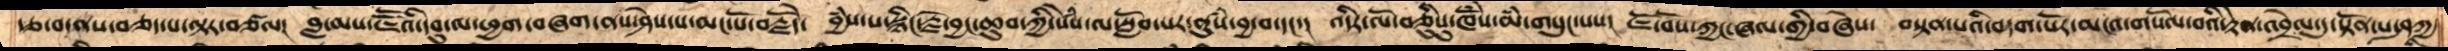རྩ་བ་ནས་བཅད་པ་ལྟར་བཙལ།  བླ་མས་ཇཽའི་དབུ་ལ་ཕྱག་བཞག་ནས་ཤེས་པ་མང་པོ་བརྗོདེ་  བྱཾས་པ་སྙིང་རྗེ་བྱང་ཆུབ་ཀྱི་སེཾས་ལ་སློབ་པར་ནུསཾ་བྱ་བ་དང་།  འདིར་ལོ་བཅིུསུ་ཁོཾས་མཾ་གསུང་པས།  ཇོ་བོས་ཀྱང་ཞལ་གྱི་བཞེས་  བསྟན་པའི་བདག་པོར་མངའ་གསོལ་བའི་རྟེན་འབྲེལ་དུ་སྟོན་པ་ཤཱཀྱ་
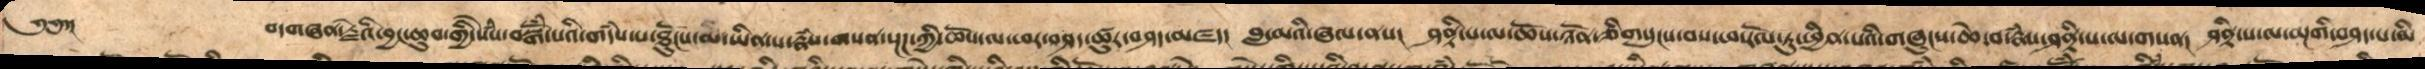༄༅་།      བདགཞན་རྗེའི་བྱང་ཆུབ་གྱི་སེཾས་བསྒོཾ་པའི་གདཾས་པ་ཐུངོས་མ་ཡིན་པ་རྣཾས་གསན་སྔཌ་ཀྱི་ཆོས་ལ་ཕར་བཤད་ཚུར་བཤད་མཛད།  བླ་མའི་ཞལ་ནས།  ཤནྟི་པ་ལ་ཆོས་ཉོན་ཅིག་གསུངས་བས་ཕ་རོལ་ཏུ་ཕྱིན་པའི་གཞུངས་ཆེ་བ་རྣཾས་ཤནྟི་པ་ལ་གསན། ཤནྟི་པ་ལ་མྔགི་བཤད་པ་མི་
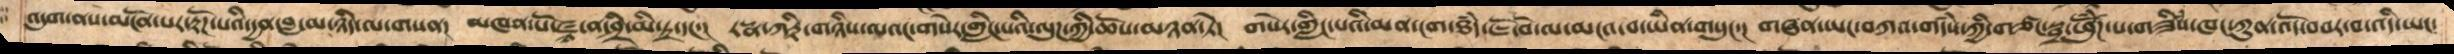འདུག་ནས་མངོན་པར་རྟོཌ་པའི་དྱན་བླ་མ་ཉིད་ལ་གསན།  མཁན་པོ་ཛྙ་ན་ཤྲི་མི་ཏྲ་དང་།  རཏྣ་ཀརྟི་གཉིས་ལའང་གསེར་གླིང་པའི་ལུཌ་ཀྱི་ཆོས་མཉན་ཏེ།  གསེར་གླིང་པའི་མན་ངག་ཐཾད་ཇོ་བོ་ལ་མངའ་བ་ཡིན་གསུང་།  གཞན་ཡང་བཀའ་གདཾས་ཀྱི་གཙང་སྦྲ་ཕོུཾཌ་པ་གཟིཾས་ཁང་ཀུན་འོད་བབར་བ་འདི་ཡང་
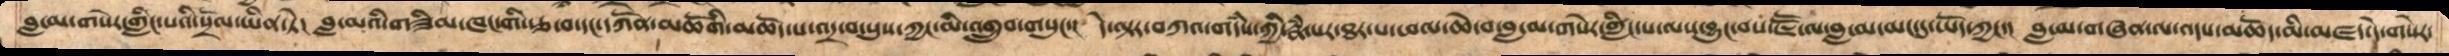བླ་མ་གསེར་གླིང་པའི་སྲོལ་ཡིན་ཏེ།  བླ་མའི་གཟིམ་ཁང་གི་རྩ་བ་དདང་དཀོན་མཆོགི་མཆོད་པ་འདྲ་བ་སུས་ཀྱང་མི་འགྲུབ་གསུང་།  དེ་ལྟར་བཀའ་གདཾས་ཀྱི་རྣཾ་པར་ཐར་པ་ཕལ་ཆེ་བ་བླ་མ་གསེར་གླིང་པ་ལས་བྱུང་བས་ཇཽ་ལ་བླ་མ་མང་དུ་ཡོད་ཀྱང་།  བླ་མ་གཞན་ལ་འདས་མཆོད་མི་མཛད་དེ་གསེར་
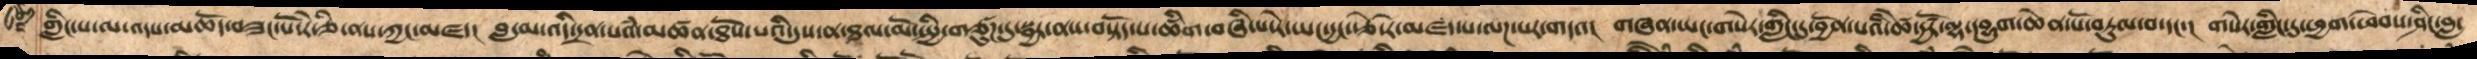གླིང་པ་ལ་འདས་མཆོད་བཟང་པོ་རེ་ཅི་ནས་ཀྱང་མཛད། བླ་མ་འདི་དྲན་པའཾ་མཚན་ཐོས་པའི་དུས་ན་ཐལ་མོ་སྤྱི་གཙུཌ་དུ་སྦྱར་ནས་བསྟོད་པ་ཚིག་བཞི་པ་རེ་ཡང་དྱང་རྩེ་རེ་མཛད་པ་ལཌ་པར་གདའ། གཞན་ཡང་གསེར་གླིང་དུ་བྱོན་པའི་ཚེ་དྱཚོར་ལྷ་དབྱུག་ཆེན་པོ་བཏུལ་བ་དང་། གསེར་གླིང་དུ་ཕྱག་ཕེབས་ཤིང་བླ་
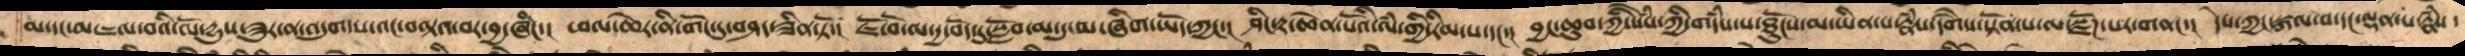མ་དང་མཇལ་བའི་ལོ་དྱུས་ཟུར་ན་འདུག་པ་འང་བལྟའ་བར་བྱ་ཞིང་།  ཕལ་ཆེན་ནི་གོང་དུ་བཤད་ཟིན་ཏོ་།  ཇོ་བོ་ལ་དྱ་བོད་དུ་སློབ་མ་དུ་མ་ཞིག་ཡོད་ཀྱང་།  ཤིང་རྟ་ཆེན་པོའི་ལཾ་གྱི་རིམ་པ་དང་།  བྱང་ཆུབ་ཀྱི་སེཾས་ཀྱི་གདཾས་པ་ཐོུངས་མ་ཡིན་པ་རྣཾས་དགཻས་སྟོན་པ་ལ་སྫོཌ་པར་གནང་།  དེས་ཀྱང་སྐལ་བ་དང་ལྡན་པ་རྣཾས་
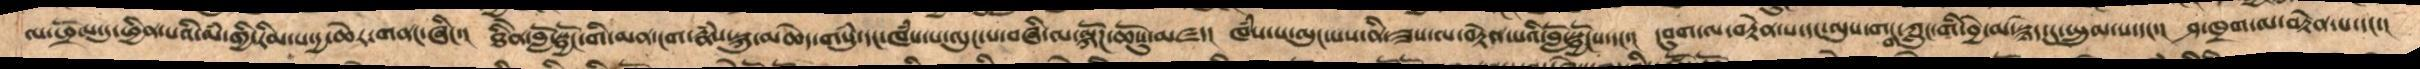ལ་ཕྲོལ་དུ་ཕྱིན་པའི་ལཾ་གྱི་རིམ་པ་དྱ་ཆེར་གནང་ཞིང་། ཐིནེ་བློ་སྦྱོང་གི་མན་ངག་རྣཾས་སྐུ་མཆེད་གསུཾ་དང་ཁཾས་པ་ལུང་པ་བཞི་ལ་ལྐོཌ་ཆོསུ་མཛད།  ཁཾས་པ་ལུང་པས་ནི་ཟས་ལ་བརྟེན་པའི་བློ་སྦྱོངས་དང་།  དབུག་ལ་བརྟེན་པ་དང་ལུས་གངྒ་ཀླུང་གི་བྱེ་མ་སྙེད་དུ་སྤྲུལ་པ་དང་།  ཤ་ཁྲག་ལ་བརྟེན་པ་དང་།
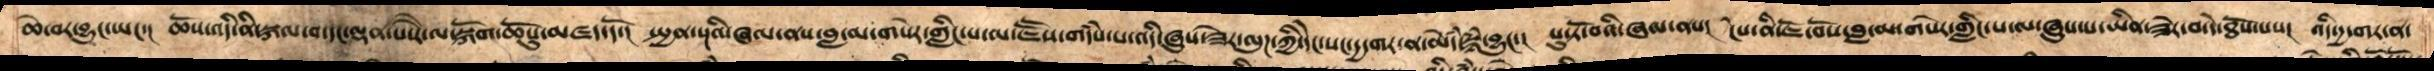ཆེ་བར་བྱུང་ཡང་།  ཆོས་འདི་ནི་སྐལ་བ་དང་ལྡན་པ་རཻ་ལ་སྐོག་ཆོསུ་མཛད་དོ་།  སྤྱན་སྔའི་ཞལ་ནས་བླ་མ་གསེར་གླིང་པ་ལ་ཇཽས་གདཾས་པ་འདི་ཞུས་ཟེར་ལུཌ་ཀྱི་དེང་སང་དྱ་གར་ན་མེདཾ་སྙཾ་བྱུང་།  པུ་ཏོོ་བའི་ཞལ་ནས།  ངེས་ནི་ཇོ་བོས་བླ་མ་གསེར་གླིང་པ་ལ་ཞུས་པ་ཡིན་ཟེར་བ་དེ་ཐོས་པས།  འདི་དྱ་གར་ན་
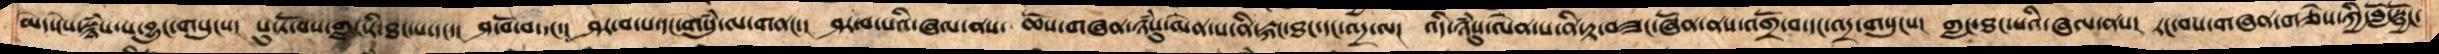མེད་ངེས་སྙཾ་པ་བྱུང་གསུངས།  པོ་ཏོ་བས་གླང་རི་ཐང་པ་དང་།  ཤ་བོ་བ་དང་།  ཤར་བ་པ་དང་གསུཾ་ལ་གནང་།  ཤར་བ་པའི་ཞལ་ནས།  ཆོས་གཞན་ཉཾསུ་ལེན་པ་ནི་རྐང་ཐང་དང་འདྲ་ལ།  འདི་ཉཾསུ་ལེན་པ་ནི་རྟ་བཟང་ཞོན་ནས་འགྲོ་བ་དང་འདྲ་གསུངས།  གླང་ཐང་པའི་ཞལ་ནས། རང་བས་གཞན་གཅེས་ཀྱི་བློ་སྦྱོང་
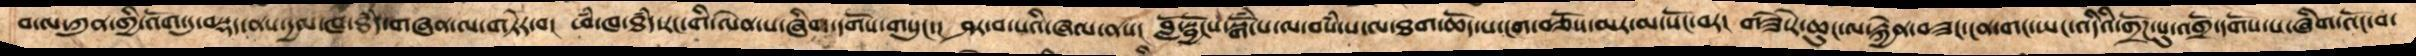བ་ལ་ཀུན་གྱི་འོག་ཏུ་བསྡད་ནས་དྱལ་ཁ་ཐཾད་གཞན་ལ་གཏེར་བ།  ཕཾ་ཁ་ཐཾད་རང་གི་ལེན་པ་ཞིག་དགོས་གསུང་།  ཤར་བ་པའི་ཞལ་ནས།  བློ་སྦྱོང་སྒོཾ་པ་ལ་བསཾ་པ་ལ་ཐག་ཆོད་པ་ངག་བཅོས་མར་མ་སོང་བར།  གཟེ་རེ་ཆུང་ལ་སྐྱོན་བཟང་ངན་གང་ཡང་འདིའི་གྲོཌ་སུ་འགྲོ་དགོས་པ་ཞིག་འོང་བ་
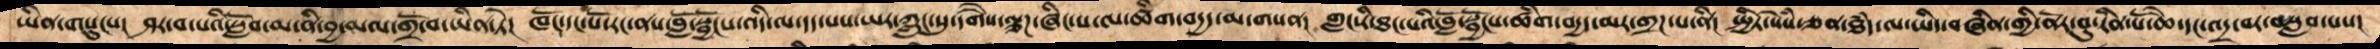ཡིན་གསུངས།  ཤར་བ་པའི་སློབ་མ་ནི་བྱ་མལ་གྲོ་བ་ཡིན་ཏེ།  ཁོང་དང་པོ་རང་ནས་བློ་སྦྱོངས་འདི་ལ་དད་པས་ཡར་ཀླུང་སུ་དགཻས་ལྕཌ་ཞིང་པ་ལ་ཚིག་བདྱད་མ་གསན།  གླང་རི་ཐང་པའི་བློ་སྦྱོངས་ཚིག་བདྱད་མར་གྲཌ་པ་ནི།  སྤྱིར་སེཾས་ཅན་ཐཾད་ལ་ཡིད་བཞིན་གྱི་ནོར་བུ་རིན་པོ་ཆེ་དང་འདྲ་བར་བསླབ་པས།
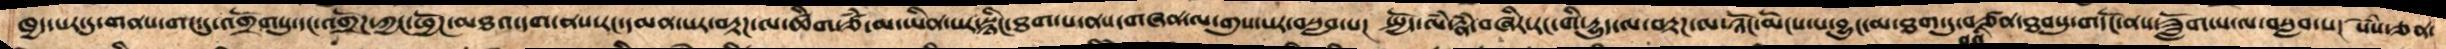ཁྱད་པར་དུ་གནས་གང་དུ་འགྲོགསུ་དང་འགྲོཌ་ཀྱང་ཕྱོཌ་མཐའ་དག་ནས་རང་དམན་པར་བརྟཌ་ལ་ཚིག་ཙཾ་མ་ཡིན་པར་སྙིང་ཐག་པ་ནས་གཞན་ལ་གུས་པར་བསླབ་པ། སྤྱོད་ལཾ་རྣཾ་བཞིར་རང་གི་དྱུད་ལ་བརྟཌ་ལ་ཉོན་མོངས་པ་བྱུང་མ་ཐག་དུ་བཙན་ཐབསུ་གདོང་ནས་ཟློག་པ་ལ་བསླབ་པ། སེཾས་ཅན་
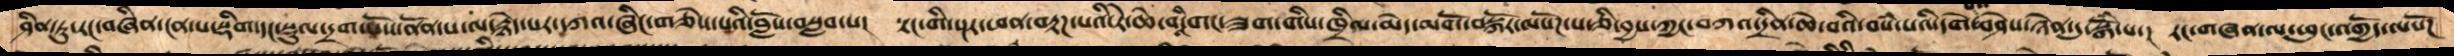ཤིན་ཏུ་རང་བཞིན་ངན་པ་སྡིག་དང་སྡུལ་དྲག་པོས་ནོན་པ་ལ་རྙེད་པར་དཀའ་ཞིང་གཅེས་པའི་བློས་བསླབ་པ། རང་གིས་སྔར་ཕན་བརྟཌ་པའི་རེ་ཆེ་བའི་གང་ཟག་གིས་ཁྲིལ་མེད་མགོ་བསྐོར་ལསོཌ་པ་ཅི་བྱས་ཀྱང་བཀའ་དྲིན་ཆེ་བའི་བསཾ་པའི་དགེ་བའི་བཤེས་ཉེན་དུ་སྒོཾ་པ་། རང་གཞན་ལ་ཕུང་འགྱོད་ལསོཌ
